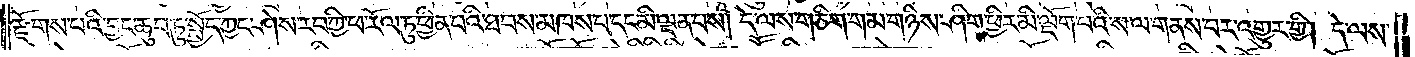རྫོགས་པའི་བྱང་ཆུབ་ཏུ་སྤྱོད་ཀྱང་ཤེས་རབ་ཀྱི་ཕ་རོལ་ཏུ་ཕྱིན་པའི་ཐབས་མཁས་པ་དང་མི་ལྡན་པས། དེ་ལས་གཅིག་གམ་གཉིས་ཤིག་ཕྱིར་མི་ལྡོག་པའི་ས་ལ་གནས་པར་འགྱུར་གྱི། དེ་ལས་
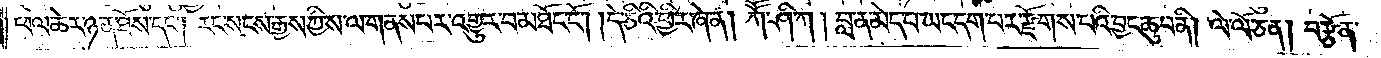ཕལ་ཆེར་ཉན་ཐོས་དང༌། རང་སངས་རྒྱས་ཀྱི་ས་ལ་གནས་པར་འགྱུར་པ་མཐོང་ངོ༌། །དེ་ཅིའི་ཕྱིར་ཞེ་ན། ཀཽ་ཤི་ཀ། བླ་ན་མེད་པ་ཡང་དག་པར་རྫོགས་པའི་བྱང་ཆུབ་ནི། ལེ་ལོ་ཅན། བརྩོན་
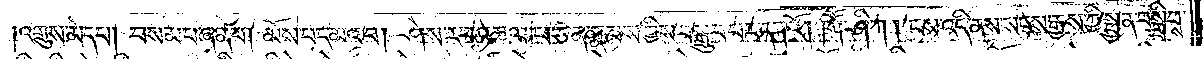འགྲུས་མེད་པ། བསམ་པ་ཞན་པ། མོས་པ་དམའ་བ། ཤེས་རབ་འཆལ་པ་ཅན་རྣམས་ཀྱིས་བསྒྲུབ་པར་དཀའོ། །ཀཽ་ཤི་ཀ། ངས་འདི་ནས་སངས་རྒྱས་ཀྱི་སྤྱན་བསྒྲིབས་
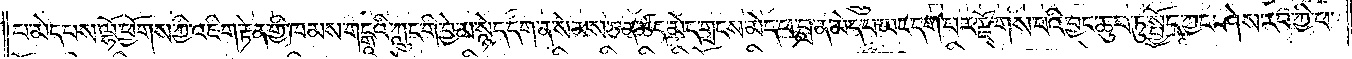པ་མེད་པས་ལྷོ་ཕྱོགས་ཀྱི་འཇིག་རྟེན་གྱི་ཁམས་གངྒཱའི་ཀླུང་གི་བྱེ་མ་སྙེད་དག་ན་སེམས་ཅན་ཚད་མེད་གྲངས་མེད་པ་བླ་ན་མེད་པ་ཡང་དག་པར་རྫོགས་པའི་བྱང་ཆུབ་ཏུ་སྤྱོད་ཀྱང་ཤེས་རབ་ཀྱི་ཕ་
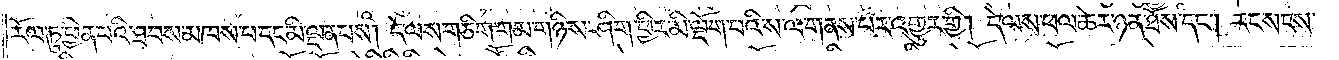རོལ་ཏུ་ཕྱིན་པའི་ཐབས་མཁས་པ་དང་མི་ལྡན་པས། དེ་ལས་གཅིག་གམ་གཉིས་ཤིག་ཕྱིར་མི་ལྡོག་པའི་ས་ལ་གནས་པར་འགྱུར་གྱི། དེ་ལས་ཕལ་ཆེར་ཉན་ཐོས་དང༌། རང་སངས་
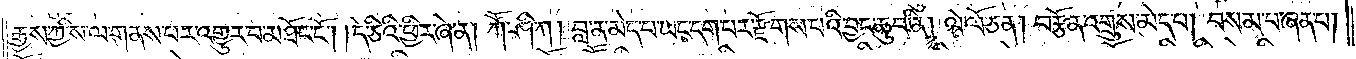རྒྱས་ཀྱི་ས་ལ་གནས་པར་འགྱུར་བ་མཐོང་ངོ༌། །དེ་ཅིའི་ཕྱིར་ཞེ་ན། ཀཽ་ཤི་ཀ། བླ་ན་མེད་པ་ཡང་དག་པར་རྫོགས་པའི་བྱང་ཆུབ་ནི། ལེ་ལོ་ཅན། བརྩོན་འགྲུས་མེད་པ། བསམ་པ་ཞན་པ།
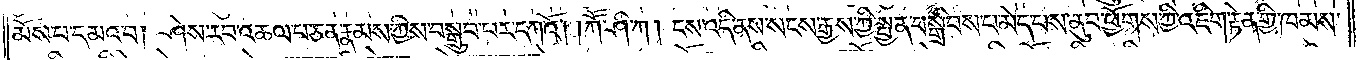མོས་པ་དམའ་བ། ཤེས་རབ་འཆལ་པ་ཅན་རྣམས་ཀྱིས་བསྒྲུབ་པར་དཀའོ། །ཀཽ་ཤི་ཀ། ངས་འདི་ནས་སངས་རྒྱས་ཀྱི་སྤྱན་བསྒྲིབས་པ་མེད་པས་ནུབ་ཕྱོགས་ཀྱི་འཇིག་རྟེན་གྱི་ཁམས་
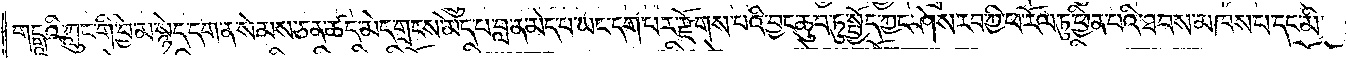གངྒཱའི་ཀླུང་གི་བྱེ་མ་སྙེད་དག་ན་སེམས་ཅན་ཚད་མེད་གྲངས་མེད་པ་བླ་ན་མེད་པ་ཡང་དག་པར་རྫོགས་པའི་བྱང་ཆུབ་ཏུ་སྤྱོད་ཀྱང་ཤེས་རབ་ཀྱི་ཕ་རོལ་ཏུ་ཕྱིན་པའི་ཐབས་མཁས་པ་དང་མི་
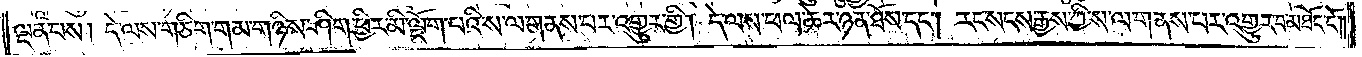ལྡན་པས། དེ་ལས་གཅིག་གམ་གཉིས་ཤིག་ཕྱིར་མི་ལྡོག་པའི་ས་ལ་གནས་པར་འགྱུར་གྱི། དེ་ལས་ཕལ་ཆེར་ཉན་ཐོས་དང༌། རང་སངས་རྒྱས་ཀྱི་ས་ལ་གནས་པར་འགྱུར་བ་མཐོང་ངོ༌། །
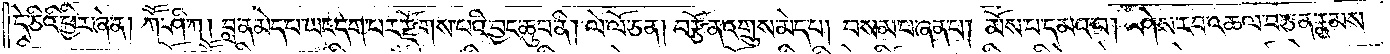དེ་ཅིའི་ཕྱིར་ཞེ་ན། ཀཽ་ཤི་ཀ། བླ་ན་མེད་པ་ཡང་དག་པར་རྫོགས་པའི་བྱང་ཆུབ་ནི། ལེ་ལོ་ཅན། བརྩོན་འགྲུས་མེད་པ། བསམ་པ་ཞན་པ། མོས་པ་དམའ་བ། ཤེས་རབ་འཆལ་བ་ཅན་རྣམས་
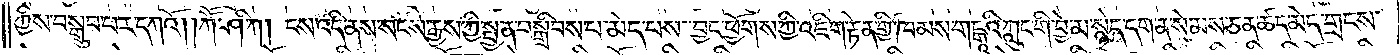ཀྱིས་བསྒྲུབ་པར་དཀའོ། །ཀཽ་ཤི་ཀ། ངས་འདི་ནས་སངས་རྒྱས་ཀྱི་སྤྱན་བསྒྲིབས་པ་མེད་པས་བྱང་ཕྱོགས་ཀྱི་འཇིག་རྟེན་གྱི་ཁམས་གངྒཱའི་ཀླུང་གི་བྱེ་མ་སྙེད་དག་ན་སེམས་ཅན་ཚད་མེད་གྲངས་
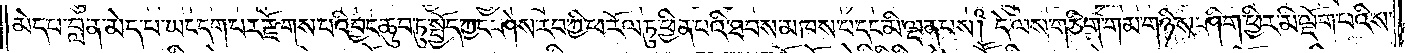མེད་པ་བླ་ན་མེད་པ་ཡང་དག་པར་རྫོགས་པའི་བྱང་ཆུབ་ཏུ་སྤྱོད་ཀྱང་ཤེས་རབ་ཀྱི་ཕ་རོལ་ཏུ་ཕྱིན་པའི་ཐབས་མཁས་པ་དང་མི་ལྡན་པས། དེ་ལས་གཅིག་གམ་གཉིས་ཤིག་ཕྱིར་མི་ལྡོག་པའི་ས་
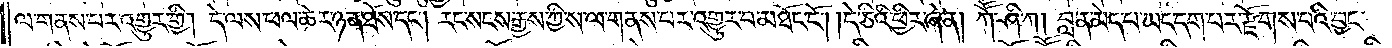ལ་གནས་པར་འགྱུར་གྱི། དེ་ལས་ཕལ་ཆེར་ཉན་ཐོས་དང༌། རང་སངས་རྒྱས་ཀྱི་ས་ལ་གནས་པར་འགྱུར་བ་མཐོང་ངོ༌། །དེ་ཅིའི་ཕྱིར་ཞེ་ན། ཀཽ་ཤི་ཀ། བླ་ན་མེད་པ་ཡང་དག་པར་རྫོགས་པའི་བྱང་
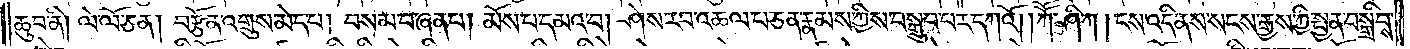ཆུབ་ནི། ལེ་ལོ་ཅན། བརྩོན་འགྲུས་མེད་པ། བསམ་པ་ཞན་པ། མོས་པ་དམའ་བ། ཤེས་རབ་འཆལ་པ་ཅན་རྣམས་ཀྱིས་བསྒྲུབ་པར་དཀའོ། །ཀཽ་ཤི་ཀ། ངས་འདི་ནས་སངས་རྒྱས་ཀྱི་སྤྱན་བསྒྲིབས་
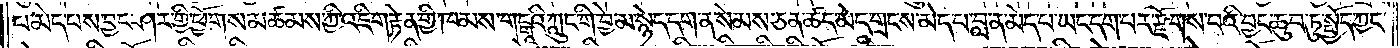པ་མེད་པས་བྱང་ཤར་གྱི་ཕྱོགས་མཚམས་ཀྱི་འཇིག་རྟེན་གྱི་ཁམས་གངྒཱའི་ཀླུང་གི་བྱེ་མ་སྙེད་དག་ན་སེམས་ཅན་ཚད་མེད་གྲངས་མེད་པ་བླ་ན་མེད་པ་ཡང་དག་པར་རྫོགས་པའི་བྱང་ཆུབ་ཏུ་སྤྱོད་ཀྱང་
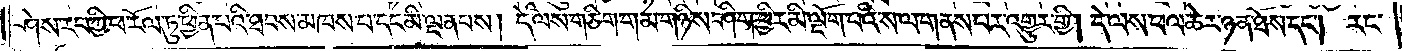ཤེས་རབ་ཀྱི་ཕ་རོལ་ཏུ་ཕྱིན་པའི་ཐབས་མཁས་པ་དང་མི་ལྡན་པས། དེ་ལས་གཅིག་གམ་གཉིས་ཤིག་ཕྱིར་མི་ལྡོག་པའི་ས་ལ་གནས་པར་འགྱུར་གྱི། དེ་ལས་ཕལ་ཆེར་ཉན་ཐོས་དང༌། རང་
